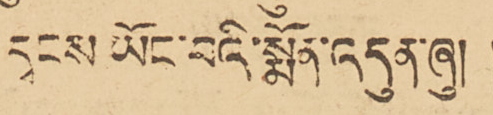དྭངས ཡོང་བའི་སྨོན་འདུན་ཞུ། །
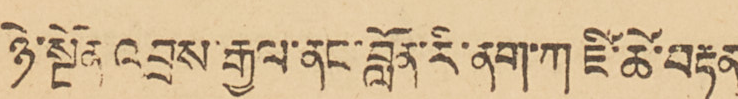ཉེ་སྔོན འབྲས་རྒྱལ་ནང་བློན་རི་ནག་ཀ ཛི་ཚེ་བརྟན་
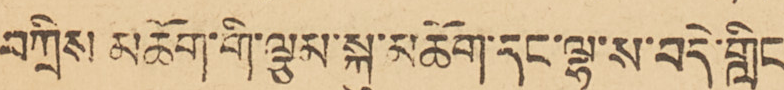བཀྲིས མཆོག་གི་ལྕམ་སྐུ་མཆོག་དང་ལྷ་ས་བདེ་གླིང་
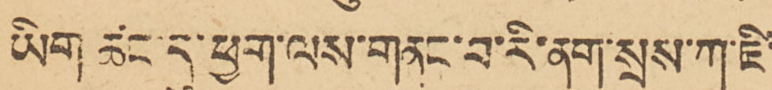ཡིག ཚང་དུ་ཕྱག་ལས་གནང་བ་རི་ནག་སྲས་ཀ་ཛི་
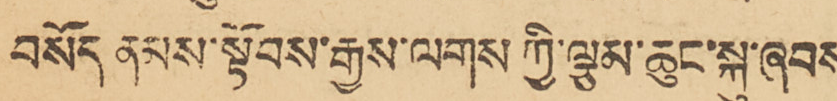བསོད ནམས་སྟོབས་རྒྱས་ལགས ཀྱི་ལྕམ་ཆུང་སྐུ་ཞབས
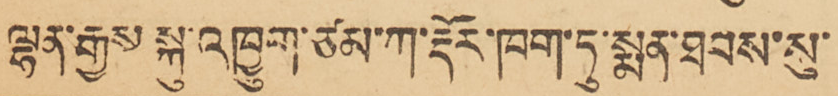ལྷན་རྒྱས སྐུ་འཁྱུག་ཙམ་ཀ་རྡོར་ཁག་ཏུ་སྨན་ཐབས་སུ་
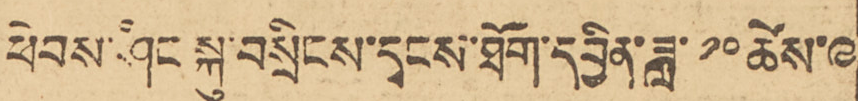ཕེབས་ཤིང སྐུ་བསྲེངས་དྭངས་ཐོག་དབྱིན་ཟླ་ ༡༠ ཚེས་ ༩
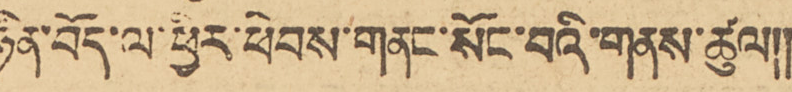ཉིན་བོད་ལ་ཕྱིར་ཕེབས་གནང་སོང་བའི་གནས་ཚུལ༎
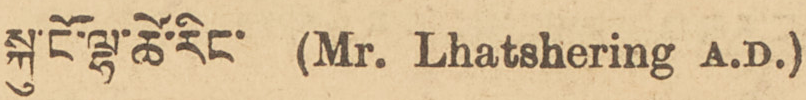སྐུ་ངོ་ལྷ་ཚེ་རིང་ (Mr. Lhatshering A.D.)
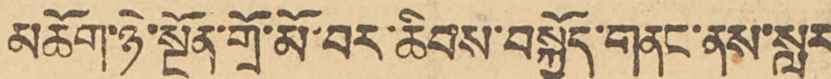མཆོག་ཉེ་སྔོན་གྲོ་མོ་བར་ཆིབས་བསྐྱོད་གནང་ནས་སླར་
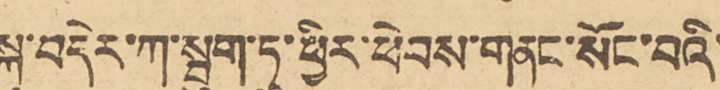སྐུ་བདེར་ཀ་སྦུག་ཏུ་ཕྱིར་ཕེབས་གནང་སོང་བའི་
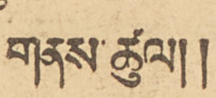གནས་ཚུལ།།
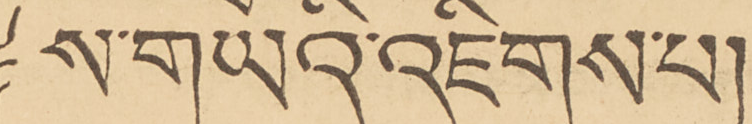༈ ས་གཡོའི་འཇིགས་པ།
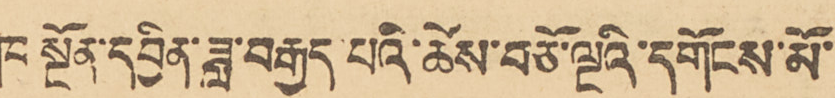ཁ སྔོན་དབྱིན་ཟླ་བརྒྱད་པའི་ཚེས་བཅོ་ལྔའི་དགོངས་མོ་
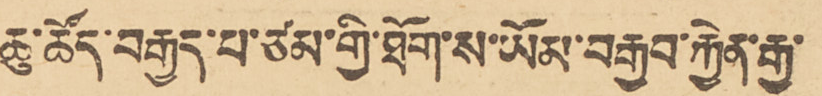ཆུ་ཚོད་བརྒྱད་པ་ཙམ་གྱི་ཐོག་ས་ཡོམ་བརྒྱབ་རྐྱེན་རྒྱ་
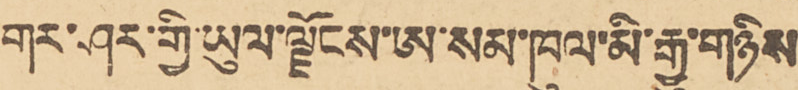གར་ཤར་གྱི་ཡུལ་ལྗོངས་ཨ་སམ་ཁུལ་མི་རྒྱུ་གཉིས་
